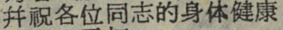并祝各位同志的身体健康
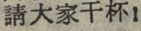請大家干杯！
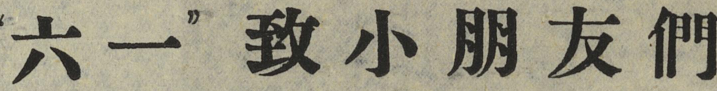“六一”致小朋友們
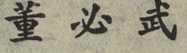董必武
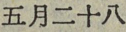五月二十八
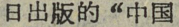日出版的“中国
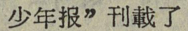少年报”刊載了
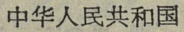中华人民共和国
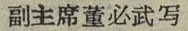副主席董必武写
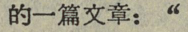的一篇文章章：“
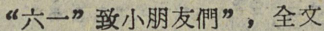六一”致小朋友們”，全文
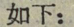如下：
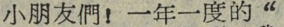小朋友們！一年一度的“
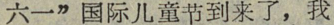六一”国际儿重节到来了，我
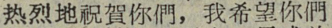热烈地祝賀你們，我希望你們
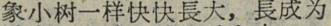象小树一样快快長大，長成为
